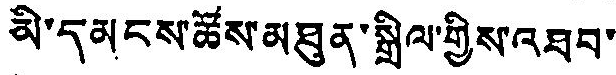མི་དམངས་ཚོས་མཐུན་སྒྲིལ་གྱིས་འཐབ་
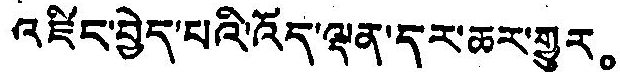འཛིང་བྱེད་པའི་འོད་ལྡན་དར་ཆར་གྱུར。
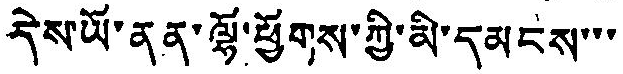དེས་ཡོ་ནན་ལྷོ་ཕྱོགས་ཀྱི་མི་དམངས་་་
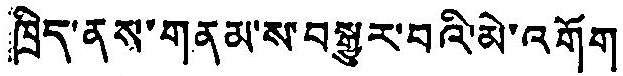ཁྲིད་ནས་གནམ་ས་བསྒྱུར་བའི་མེ་འགོག
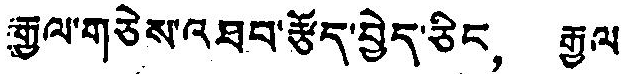རྒྱལ་གཅེས་འཐབ་རྩོད་བྱེད་ཅིང， རྒྱལ
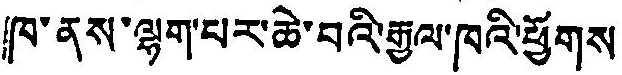ཁ་ནས་ལྷག་པར་ཆེ་བའི་རྒྱལ་ཁའི་ཕྱོགས་
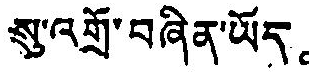སུ་འགྲོ་བཞིན་ཡོད。
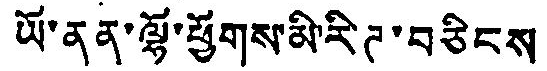ཡོ་ནན་ལྷོ་ཕྱོགས་མི་རིཊ་བཅིངས
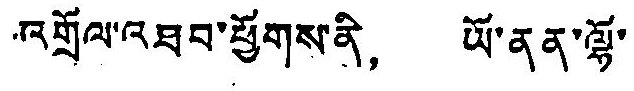འགྲོལ་འཐབ་ཕྱོགས་ནི， ཡོ་ནན་ལྷོ་
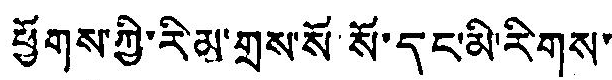ཕྱོགས་ཀྱི་རི་མ་གྲས་སོ་སོ་དང་མི་རིགས་
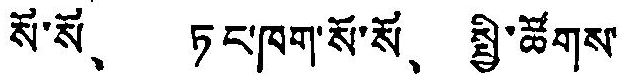སོ་སོ、 ཏང་ཁག་སོ་སོ、 སྤྱི་ཚོགས་
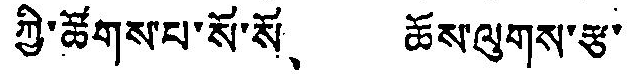ཀྱི་ཚོགས་པ་སོ་སོ、 ཆོས་ལུགས་རྩ་
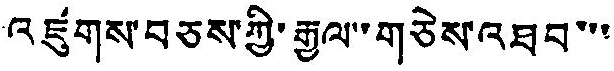འཛུགས་བཅས་ཀྱི་རྒྱལ་གཅེས་འཐབ་་་
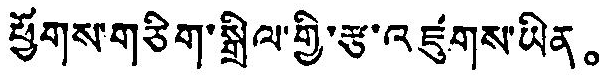ཕྱོགས་གཅིག་སྒྲིལ་གྱི་རྩ་འཛུགས་ཡིན。
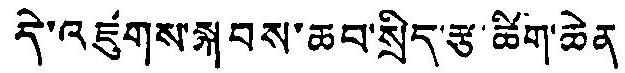དེ་འཛུགས་སྐབས་ཆབ་སྲིད་རྩ་ཚིག་ཆེན
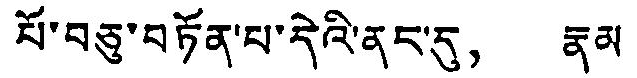པོ་བཅུ་བཏོན་པ་དེའི་ནང་དུ， རྣམ
